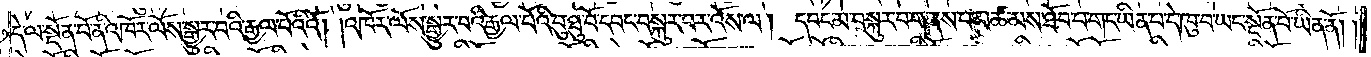དེ་ལ་སྔོན་པོ་ནི་འཁོར་ལོས་སྒྱུར་བའི་རྒྱལ་པོའིའོ། །འཁོར་ལོས་སྒྱུར་བའི་རྒྱལ་པོའི་བུ་ཐུ་བོ་དབང་བསྐུར་བར་འོས་ལ། དབང་མ་བསྐུར་བ་གནས་པ་མཚམས་ཐོབ་པ་གང་ཡིན་པ་དེ་ཁུ་བ་ཡང་སྔོན་པོ་ཡིན་ནོ། །
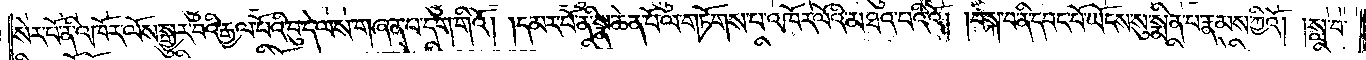སེར་པོ་ནི་འཁོར་ལོས་སྒྱུར་བའི་རྒྱལ་པོའི་བུ་དེ་ལས་གཞན་པ་དག་གིའོ། །དམར་པོ་ནི་སྣ་ཆེན་པོ་ལ་གཏོགས་པ་འཁོར་ལོའི་མཐའ་པའིའོ། །བསྐ་བ་ནི་དབང་པོ་ཡོངས་སུ་སྨིན་པ་རྣམས་ཀྱིའོ། །སླ་བ་
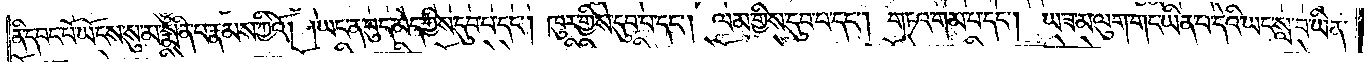ནི་དབང་པོ་ཡོངས་སུ་མ་སྨིན་པ་རྣམས་ཀྱིའོ། །ཡང་ན་བུད་མེད་ཀྱིས་དུབ་པ་དང༌། ཁུར་གྱིས་དུབ་པ་དང༌། ལམ་གྱིས་དུབ་པ་དང༌། གཏའ་གམ་པ་དང༌། ཡ་ཟ་མ་ལུག་གང་ཡིན་པ་དེའི་ཡང་སླ་བ་ཡིན་
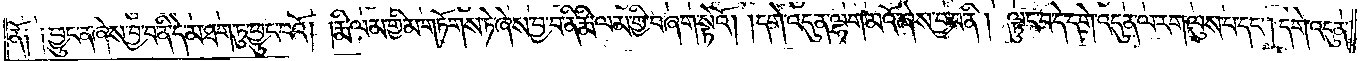ནོ༑ ༑ཕྱུང་ན་ཞེས་བྱ་བ་ནི་དེ་མ་ཐག་ཏུ་ཕྱུང་བའོ། །རྨི་ལམ་གྱི་མ་གཏོགས་ཏེ་ཞེས་བྱ་བ་ནི་རྨི་ལམ་གྱི་བཞག་སྟེའོ། །དགེ་འདུན་ལྷག་མའོ་ཞེས་བྱ་བ་ནི། ལྟུང་བ་དེ་དགེ་འདུན་ལ་རག་ལུས་པ་དང༌། དགེ་འདུན་
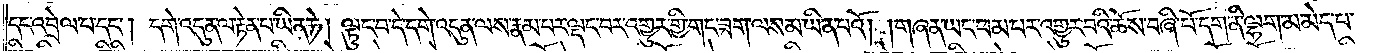དང་འབྲེལ་པ་དང༌། དགེ་འདུན་ལ་རྟེན་པ་ཡིན་ཏེ། ལྟུང་བ་དེ་དགེ་འདུན་ལས་རྣམ་པར་ལྡང་བར་འགྱུར་གྱི་གང་ཟག་ལས་མ་ཡིན་པའོ། །གཞན་ཡང་ཕམ་པར་འགྱུར་བའི་ཆོས་བཞི་པོ་དག་ནི་ལྷག་མ་མེད་པ་
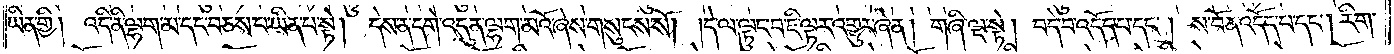ཡིན་གྱི། འདི་ནི་ལྷག་མ་དང་བཅས་པ་ཡིན་པ་སྟེ། དེས་ན་དགེ་འདུན་ལྷག་མའོ་ཞེས་གསུངས་སོ། །དེ་ལ་ལྟུང་བ་ཇི་ལྟར་འགྱུར་ཞེ་ན། གཞི་ལྔ་སྟེ། བདེ་བ་འདོད་པ་དང༌། ས་བོན་འདོད་པ་དང༌། རིག་
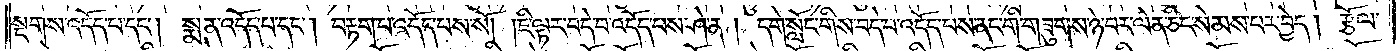སྔགས་འདོད་པ་དང༌། སྨན་འདོད་པ་དང༌། བརྟག་པ་འདོད་པས་སོ། །ཇི་ལྟར་བདེ་བ་འདོད་པས་ཤེ་ན། དགེ་སློང་གིས་བདེ་བ་འདོད་པས་ནང་གི་གཟུགས་ཉེ་བར་ལེན་ཅིང་སེམས་པར་བྱེད། རྩོལ་
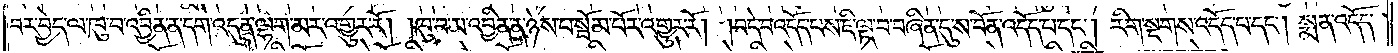བར་བྱེད་ལ་ཁུ་བ་འབྱིན་ན་དགེ་འདུན་ལྷག་མར་འགྱུར་རོ། །ཁུ་བ་མ་འབྱིན་ན་ཉེས་པ་སྦོམ་པོར་འགྱུར་རོ། །བདེ་བ་འདོད་པས་ཇི་ལྟ་བ་བཞིན་དུ་ས་བོན་འདོད་པ་དང༌། རིག་སྔགས་འདོད་པ་དང༌། སྨན་འདོད་
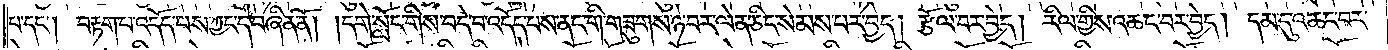པ་དང༌། བརྟག་པ་འདོད་པས་ཀྱང་དེ་བཞིན་ནོ། །དགེ་སློང་གིས་བདེ་བ་འདོད་པས་ནང་གི་གཟུགས་ཉེ་བར་ལེན་ཅིང་སེམས་པར་བྱེད། རྩོལ་བར་བྱེད། རིལ་གྱིས་འཆང་བར་བྱེད། དམ་དུ་འཆང་བར་
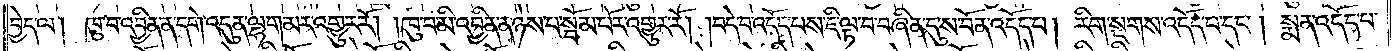བྱེད་ལ། ཁུ་བ་འབྱིན་ན་དགེ་འདུན་ལྷག་མར་འགྱུར་རོ། །ཁུ་བ་མི་འབྱིན་ན་ཉེས་པ་སྦོམ་པོར་འགྱུར་རོ། །བདེ་བ་འདོད་པས་ཇི་ལྟ་བ་བཞིན་དུ་ས་བོན་འདོད་པ། རིག་སྔགས་འདོད་པ་དང༌། སྨན་འདོད་པ་
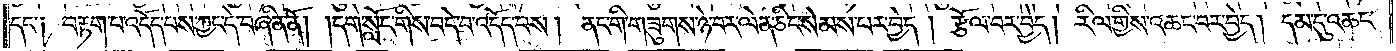དང་༑ བརྟག་པ་འདོད་པས་ཀྱང་དེ་བཞིན་ནོ། །དགེ་སློང་གིས་བདེ་བ་འདོད་པས། ནང་གི་གཟུགས་ཉེ་བར་ལེན་ཅིང་སེམས་པར་བྱེད། རྩོལ་བར་བྱེད། རིལ་གྱིས་འཆང་བར་བྱེད། དམ་དུ་འཆང་
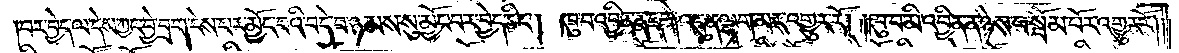བར་བྱེད་ལ་དེས་ཀྱང་བྱེ་བྲག་ངེས་པར་མྱོང་བའི་བདེ་བ་ཉམས་སུ་མྱོང་བར་བྱེད་ཅིང༌། ཁུ་བ་འབྱིན་ན་དགེ་འདུན་ལྷག་མར་འགྱུར་རོ། །ཁུ་བ་མི་འབྱིན་ན་ཉེས་པ་སྦོམ་པོར་འགྱུར་རོ༎
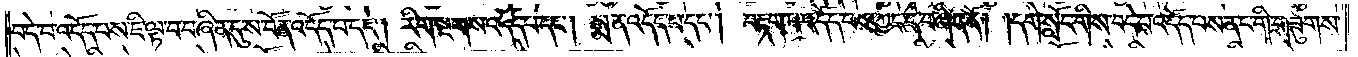བདེ་བ་འདོད་པས་ཇི་ལྟ་བ་བཞིན་དུ་ས་བོན་འདོད་པ་དང༌། རིག་སྔགས་འདོད་པ་དང༌། སྨན་འདོད་པ་དང༌། བརྟག་པ་འདོད་པས་ཀྱང་དེ་བཞིན་ནོ། །དགེ་སློང་གིས་བདེ་བ་འདོད་པས་ནང་གི་གཟུགས་
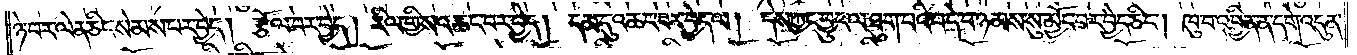ཉེ་བར་ལེན་ཅིང་སེམས་པར་བྱེད། རྩོལ་བར་བྱེད། རིལ་གྱིས་འཆང་བར་བྱེད། དམ་དུ་འཆང་བར་བྱེད་ལ། དེས་ཀྱང་བྱུང་ལ་ཐུག་པའི་བདེ་བ་ཉམས་སུ་མྱོང་བར་བྱེད་ཅིང༌། ཁུ་བ་འབྱིན་ན་དགེ་འདུན་
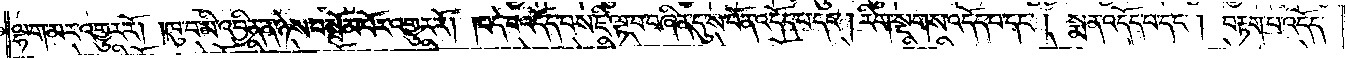ལྷག་མར་འགྱུར་རོ། །ཁུ་བ་མི་འབྱིན་ན་ཉེས་པ་སྦོམ་པོར་འགྱུར་རོ། །བདེ་བ་འདོད་པས་ཇི་ལྟ་བ་བཞིན་དུ་ས་བོན་འདོད་པ་དང༌། རིག་སྔགས་འདོད་པ་དང༌། སྨན་འདོད་པ་དང༌། བརྟག་པ་འདོད་
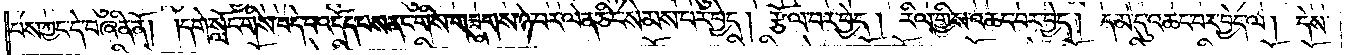པས་ཀྱང་དེ་བཞིན་ནོ། །དགེ་སློང་གིས་བདེ་བ་འདོད་པས་ནང་གིས་གཟུགས་ཉེ་བར་ལེན་ཅིང་སེམས་པར་བྱེད། རྩོལ་བར་བྱེད། རིལ་གྱིས་འཆང་བར་བྱེད། དམ་དུ་འཆང་བར་བྱེད་ལ། དེས་
